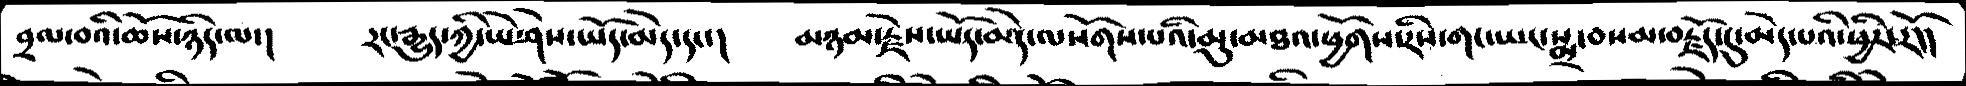བྲལ་བའི་ཆོས་ཉིད་ལ་།   རང་རྒྱུད་ཀྱི་ཡེ་ཤེས་ཡོད་མེད་དང་།   མཉམ་རྗེས་ཡོད་མེད་ལསོགས་པའི་མུ་མཐའ་ཕྱོགས་རིས་གང་ཡང་སྨྲ་བསམ་བརྗོད་དུ་མེད་པའི་ཕྱིར་རོ།།
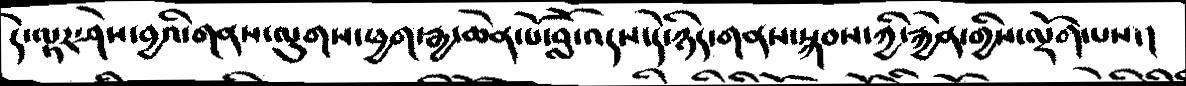དེ་ལྟར་ཤེས་བྱའི་གནས་ལུགས་ཕྱག་རྒྱ་ཆེན་པོ་བློ་འདས་དེ་ཉིད་གནས་སྐབས་ཀྱི་རྐྱེན་གྱིས་ལྡོག་པས་།
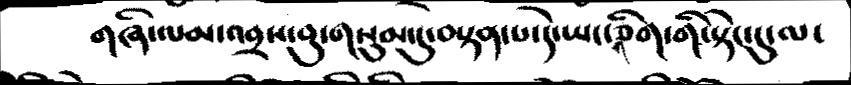གཞི་ལམ་འབྲས་བུ་གསུམ་དུ་བསྟན་པ་དེ་ཡང་གཅིག་གི་སྟེང་དུ་ལ་
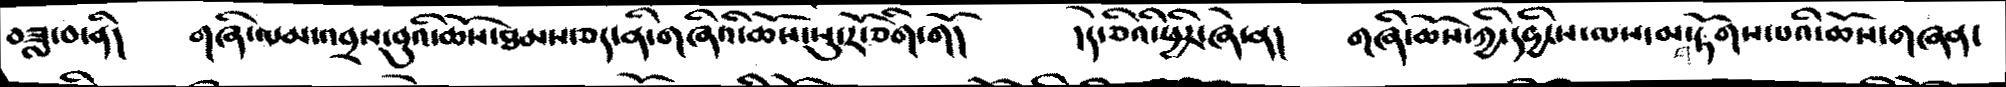བཟླ་བ་ནི།  གཞི་ལམ་འབྲས་བུའི་ཆོས་ཐམས་ཅད་ནི་གཞིའི་ཆོས་སུ་རོ་ཅིག་གོ།   །དེ་ཅིའི་ཕྱིར་ཞེ་ན།   གཞི་ཆོས་ཀྱི་དབྱིངས་ལས་མ་གཏོགས་པའི་ཆོས་གཞན་
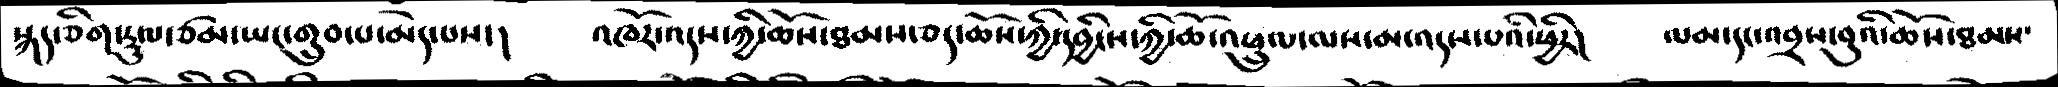སྐད་ཅིག་རྡུལ་ཙམ་ཡང་གྲུབ་པ་མེད་པས་།  འཁོར་འདས་ཀྱི་ཆོས་ཐམས་ཅད་ཀྱི་དབྱིངས་ཀྱི་ཆོ་འཕྲུལ་ལས་མ་འདས་པའི་ཕྱིར།   ལམ་དང་འབྲས་བུའི་ཆོས་ཐམས་
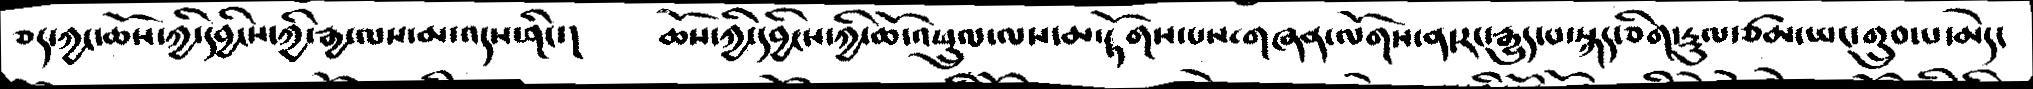ཅད་ཀྱང་ཆོས་ཀྱི་དབྱིངས་ཀྱི་རྒྱ་ལས་མ་འདས་ཤིང་།   ཆོས་ཀྱི་དབྱིངས་ཀྱི་ཆོ་འཕྲུལ་ལས་མ་རྟོགས་པས་གཞན་ལོགས་ན་རང་རྒྱུད་པ་སྐད་ཅིག་རྡུལ་ཙམ་ཡང་གྲུབ་པ་མེད་
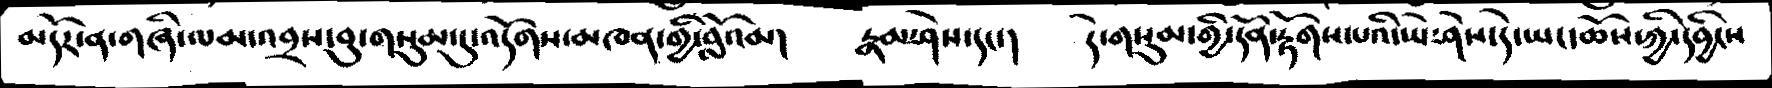མདོར་ན་གཞི་ལམ་འབྲས་བུ་གསུམ་དུ་འདོགས་མཁན་གྱི་བློའམ།   རྣམ་ཤེས་དང་།   དེ་གསུམ་གྱི་དོན་རྟོགས་པའི་ཡེ་ཤེས་དེ་ཡང་ཆོས་ཀྱི་དབྱིངས་
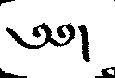༄༅།
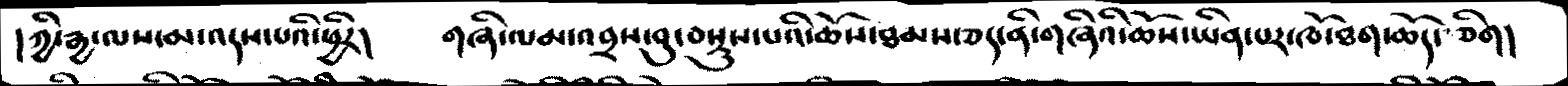།ཀྱི་རྒྱ་ལས་མ་འདས་པའི་ཕྱིར།     གཞི་ལམ་འབྲས་བུ་བསྡུས་པའི་ཆོས་ཐམས་ཅད་ནི་གཞིའི་ཆོས་ཡིན་པར་ཁོ་ཐག་ཆོད་ཅིག།
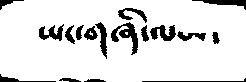ཡང་གཞི་ལམ་
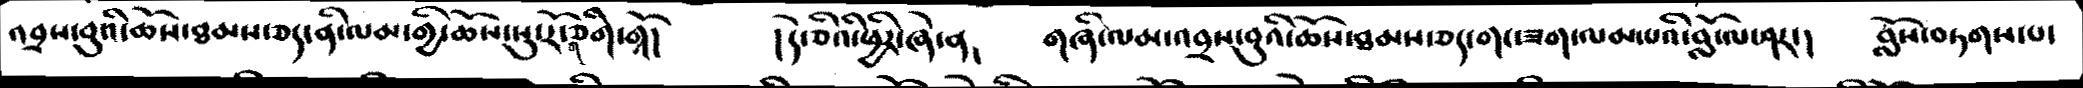འབྲས་བུའི་ཆོས་ཐམས་ཅད་ནི་ལམ་གྱི་ཆོས་སུ་རོ་གཅིག་གོ།    །དེ་ཅིའི་ཕྱིར་ཞེ་ན།   གཞི་ལམ་འབྲས་བུའི་ཆོས་ཐམས་ཅད་གང་ཟག་ལམ་པའི་བློ་ལ་ཤར་།  བློས་བཏགས་པ་
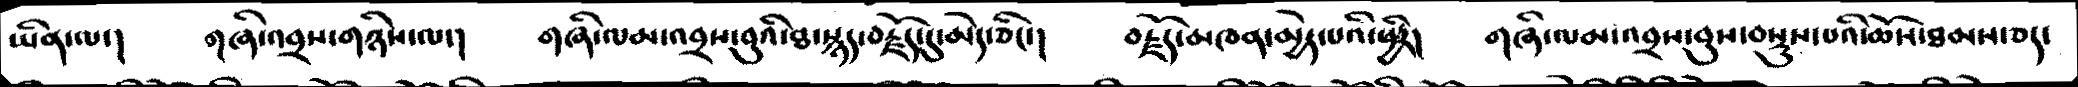ཡིན་ལ་།  གཞི་འབྲས་གཉིས་ལ་།  གཞི་ལམ་འབྲས་བུའི་ཐ་སྙད་བརྗོད་དུ་མེད་ཅིང་།   བརྗོད་མཁན་མྱེད་པའི་ཕྱིར།  གཞི་ལམ་འབྲས་བུས་བསྡུས་པའི་ཆོས་ཐམས་ཅད་
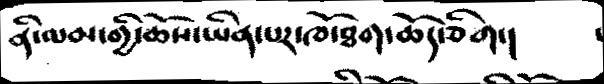ནི་ལམ་གྱི་ཆོས་ཡིན་པར་ཁོ་ཐག་ཆོད་ཅིག་།
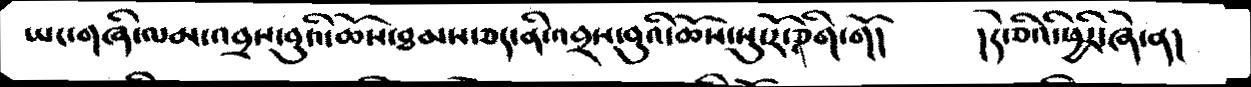ཡང་གཞི་ལམ་འབྲས་བུའི་ཆོས་ཐམས་ཅད་ནི་འབྲས་བུའི་ཆོས་སུ་རོ་གཅིག་གོ།  །དེ་ཅིའི་ཕྱིར་ཞེ་ན།
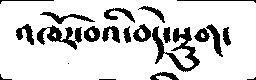འཁོར་བའི་བདེ་སྡུག
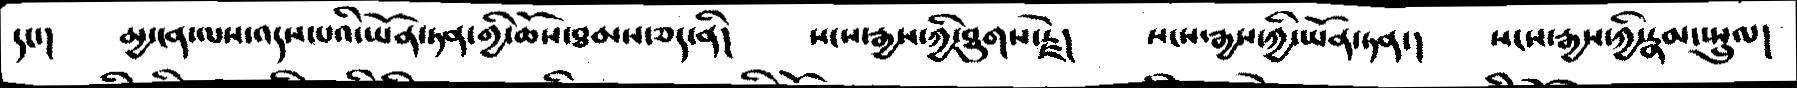དང་།  མྱ་ངན་ལས་འདས་པའི་ཡོན་ཏན་གྱི་ཆོས་ཐམས་ཅད་ནི།  སངས་རྒྱས་ཀྱི་ཐུགས་རྗེ།  སངས་རྒྱས་ཀྱི་ཡོན་ཏན་།   སངས་རྒྱས་ཀྱི་རྣམ་སྤྲུལ་
